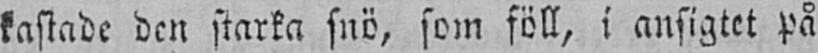kastade den starka snö, som föll, i ansigtet på
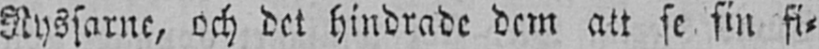Ryssarne, och det hindrade dem att se sin fi-
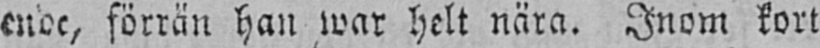ende, förrän han war helt nära. Inom kort
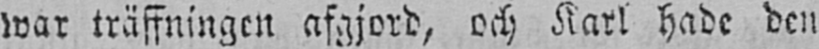war träffningen afgjord, och Karl hade den
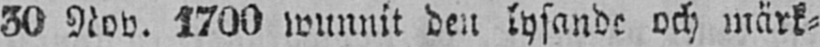30 Nov. 1700 wunnit den lysande och märk-
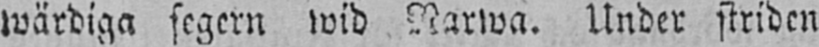wärdiga segern wid Narwa. Under striden
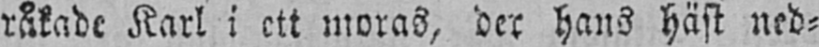råkade Karl i ett moras, der hans häst ned-
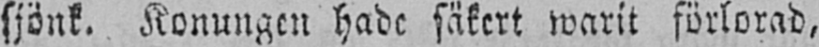sjönk. Konungen hade säkert warit förlorad,
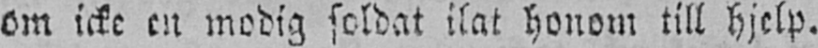om icke en modig soldat ilat honom till hjelp.
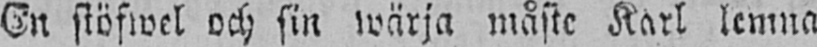En stöfwel och sin wärja måste Karl lemna
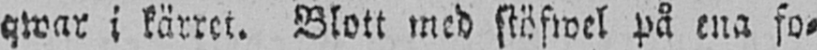qwar i kärret. Blott med stöfwel på ena fo-
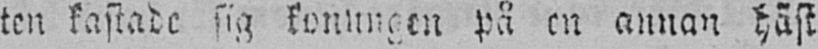ten kastade sig konungen på en annan häst
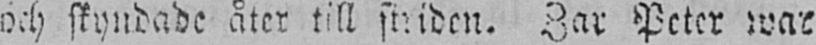och skyndade åter till striden. Zar Peter war
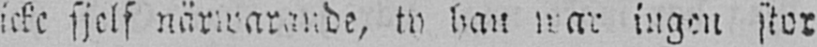icke sjelf närwarande, ty han war ingen stor
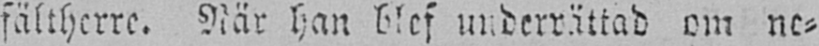fältherre. När han blef underrättad om ne-
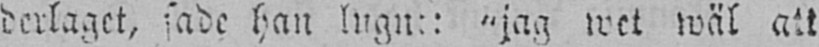derlaget, sade han lugnt: "jag wet wäl att
